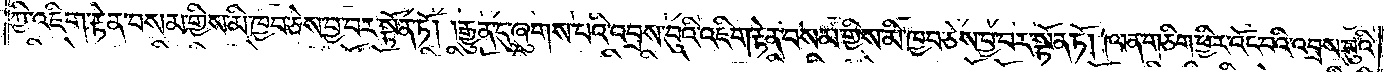ཀྱི་འཇིག་རྟེན་བསམ་གྱིས་མི་ཁྱབ་ཅེས་བྱ་བར་སྟོན་ཏོ། །རྒྱུན་དུ་ཞུགས་པའི་འབྲས་བུའི་འཇིག་རྟེན་བསམ་གྱིས་མི་ཁྱབ་ཅེས་བྱ་བར་སྟོན་ཏོ། །ལན་གཅིག་ཕྱིར་འོང་བའི་འབྲས་བུའི་
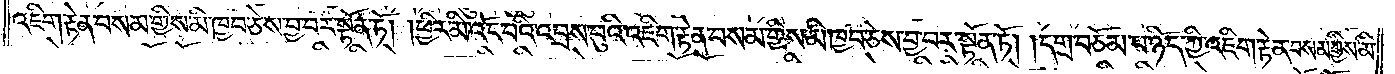འཇིག་རྟེན་བསམ་གྱིས་མི་ཁྱབ་ཅེས་བྱ་བར་སྟོན་ཏོ། །ཕྱིར་མི་འོང་བའི་འབྲས་བུའི་འཇིག་རྟེན་བསམ་གྱིས་མི་ཁྱབ་ཅེས་བྱ་བར་སྟོན་ཏོ། །དགྲ་བཅོམ་པ་ཉིད་ཀྱི་འཇིག་རྟེན་བསམ་གྱིས་མི་
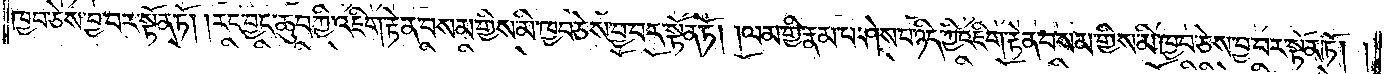ཁྱབ་ཅེས་བྱ་བར་སྟོན་ཏོ། །རང་བྱང་ཆུབ་ཀྱི་འཇིག་རྟེན་བསམ་གྱིས་མི་ཁྱབ་ཅེས་བྱ་བར་སྟོན་ཏོ། །ལམ་གྱི་རྣམ་པ་ཤེས་པ་ཉིད་ཀྱི་འཇིག་རྟེན་བསམ་གྱིས་མི་ཁྱབ་ཅེས་བྱ་བར་སྟོན་ཏོ། །
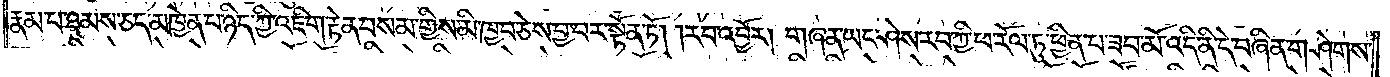རྣམ་པ་ཐམས་ཅད་མཁྱེན་པ་ཉིད་ཀྱི་འཇིག་རྟེན་བསམ་གྱིས་མི་ཁྱབ་ཅེས་བྱ་བར་སྟོན་ཏོ། །རབ་འབྱོར། གཞན་ཡང་ཤེས་རབ་ཀྱི་ཕ་རོལ་ཏུ་ཕྱིན་པ་ཟབ་མོ་འདི་ནི་དེ་བཞིན་གཤེགས་
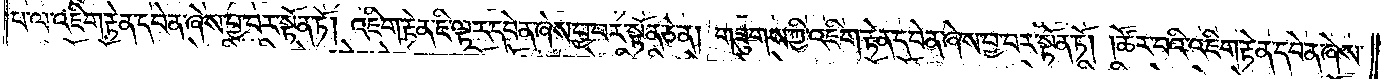པ་ལ་འཇིག་རྟེན་དབེན་ཞེས་བྱ་བར་སྟོན་ཏོ། འཇིག་རྟེན་ཇི་ལྟར་དབེན་ཞེས་བྱ་བར་སྟོན་ཅེ་ན། གཟུགས་ཀྱི་འཇིག་རྟེན་དབེན་ཞེས་བྱ་བར་སྟོན་ཏོ། །ཚོར་བའི་འཇིག་རྟེན་དབེན་ཞེས་
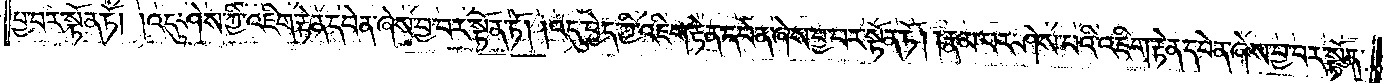བྱ་བར་སྟོན་ཏོ། །འདུ་ཤེས་ཀྱི་འཇིག་རྟེན་དབེན་ཞེས་བྱ་བར་སྟོན་ཏོ། །འདུ་བྱེད་ཀྱི་འཇིག་རྟེན་དབེན་ཞེས་བྱ་བར་སྟོན་ཏོ། །རྣམ་པར་ཤེས་པའི་འཇིག་རྟེན་དབེན་ཞེས་བྱ་བར་སྟོན་
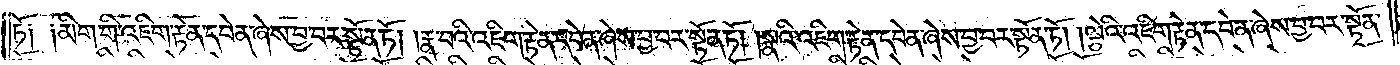ཏོ༑ ༑མིག་གི་འཇིག་རྟེན་དབེན་ཞེས་བྱ་བར་སྟོན་ཏོ། །རྣ་བའི་འཇིག་རྟེན་དབེན་ཞེས་བྱ་བར་སྟོན་ཏོ། །སྣའི་འཇིག་རྟེན་དབེན་ཞེས་བྱ་བར་སྟོན་ཏོ། །ལྕེའི་འཇིག་རྟེན་དབེན་ཞེས་བྱ་བར་སྟོན་
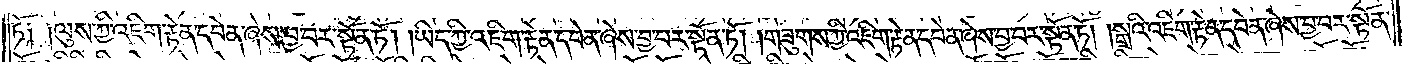ཏོ༑ ༑ལུས་ཀྱི་འཇིག་རྟེན་དབེན་ཞེས་བྱ་བར་སྟོན་ཏོ། །ཡིད་ཀྱི་འཇིག་རྟེན་དབེན་ཞེས་བྱ་བར་སྟོན་ཏོ། །གཟུགས་ཀྱི་འཇིག་རྟེན་དབེན་ཞེས་བྱ་བར་སྟོན་ཏོ། །སྒྲའི་འཇིག་རྟེན་དབེན་ཞེས་བྱ་བར་སྟོན་
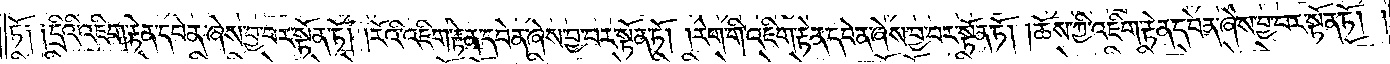ཏོ༑ ༑དྲིའི་འཇིག་རྟེན་དབེན་ཞེས་བྱ་བར་སྟོན་ཏོ། །རོའི་འཇིག་རྟེན་དབེན་ཞེས་བྱ་བར་སྟོན་ཏོ། །རེག་གི་འཇིག་རྟེན་དབེན་ཞེས་བྱ་བར་སྟོན་ཏོ། །ཆོས་ཀྱི་འཇིག་རྟེན་དབེན་ཞེས་བྱ་བར་སྟོན་ཏོ། །
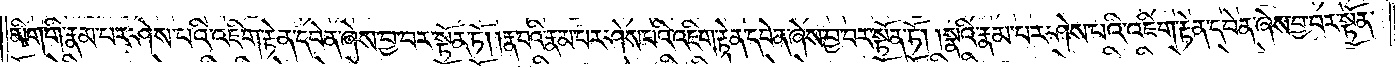མིག་གི་རྣམ་པར་ཤེས་པའི་འཇིག་རྟེན་དབེན་ཞེས་བྱ་བར་སྟོན་ཏོ། །རྣ་བའི་རྣམ་པར་ཤས་པའི་འཇིག་རྟེན་དབེན་ཞེས་བྱ་བར་སྟོན་ཏོ། །སྣའི་རྣམ་པར་ཤེས་པའི་འཇིག་རྟེན་དབེན་ཞེས་བྱ་བར་སྟོན་
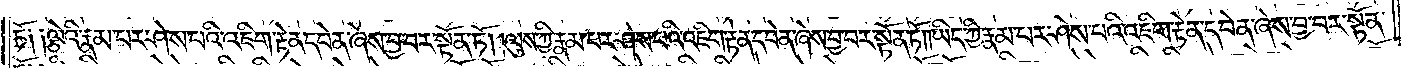ཏོ༑ ༑ལྕེའི་རྣམ་པར་ཤེས་པའི་འཇིག་རྟེན་དབེན་ཞེས་བྱ་བར་སྟོན་ཏོ། །ལུས་ཀྱི་རྣམ་པར་ཤེས་པའི་འཇིག་རྟེན་དབེན་ཞེས་བྱ་བར་སྟོན་ཏོ། །ཡིད་ཀྱི་རྣམ་པར་ཤེས་པའི་འཇིག་རྟེན་དབེན་ཞེས་བྱ་བར་སྟོན་
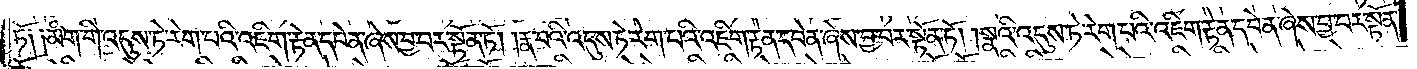ཏོ༑ ༑མིག་གི་འདུས་ཏེ་རེག་པའི་འཇིག་རྟེན་དབེན་ཞེས་བྱ་བར་སྟོན་ཏོ། །རྣ་བའི་འདུས་ཏེ་རེག་པའི་འཇིག་རྟེན་དབེན་ཞེས་བྱ་བར་སྟོན་ཏོ། །སྣའི་འདུས་ཏེ་རེག་པའི་འཇིག་རྟེན་དབེན་ཞེས་བྱ་བར་སྟོན་
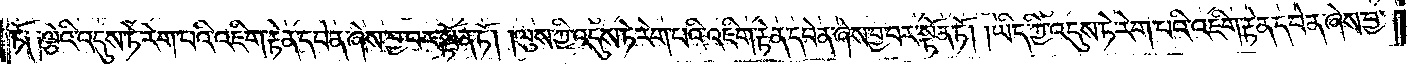ཏོ༑ ༑ལྕེའི་འདུས་ཏེ་རེག་པའི་འཇིག་རྟེན་དབེན་ཞེས་བྱ་བར་སྟོན་ཏོ། །ལུས་ཀྱི་འདུས་ཏེ་རེག་པའི་འཇིག་རྟེན་དབེན་ཞེས་བྱ་བར་སྟོན་ཏོ། །ཡིད་ཀྱི་འདུས་ཏེ་རེག་པའི་འཇིག་རྟེན་དབེན་ཞེས་བྱ་
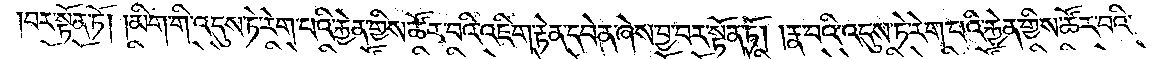བར་སྟོན་ཏོ། །མིག་གི་འདུས་ཏེ་རེག་པའི་རྐྱེན་གྱིས་ཚོར་བའི་འཇིག་རྟེན་དབེན་ཞེས་བྱ་བར་སྟོན་ཏོ། །རྣ་བའི་འདུས་ཏེ་རེག་པའི་རྐྱེན་གྱིས་ཚོར་བའི་
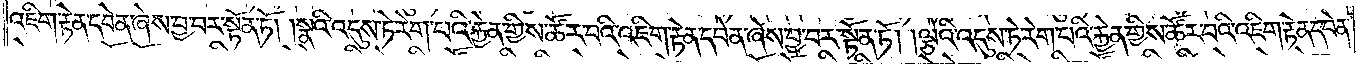འཇིག་རྟེན་དབེན་ཞེས་བྱ་བར་སྟོན་ཏོ། །སྣའི་འདུས་ཏེ་རེག་པའི་རྐྱེན་གྱིས་ཚོར་བའི་འཇིག་རྟེན་དབེན་ཞེས་བྱ་བར་སྟོན་ཏོ། །ལྕེའི་འདུས་ཏེ་རེག་པའི་རྐྱེན་གྱིས་ཚོར་བའི་འཇིག་རྟེན་དབེན་
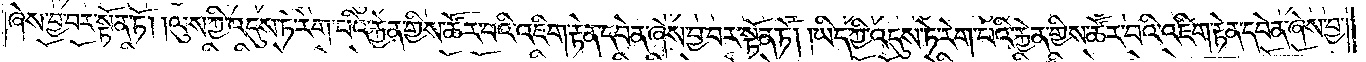ཞེས་བྱ་བར་སྟོན་ཏོ། །ལུས་ཀྱི་འདུས་ཏེ་རེག་པའི་རྐྱེན་གྱིས་ཚོར་བའི་འཇིག་རྟེན་དབེན་ཞེས་བྱ་བར་སྟོན་ཏོ། །ཡིད་ཀྱི་འདུས་ཏེ་རེག་པའི་རྐྱེན་གྱིས་ཚོར་བའི་འཇིག་རྟེན་དབེན་ཞེས་བྱ་
